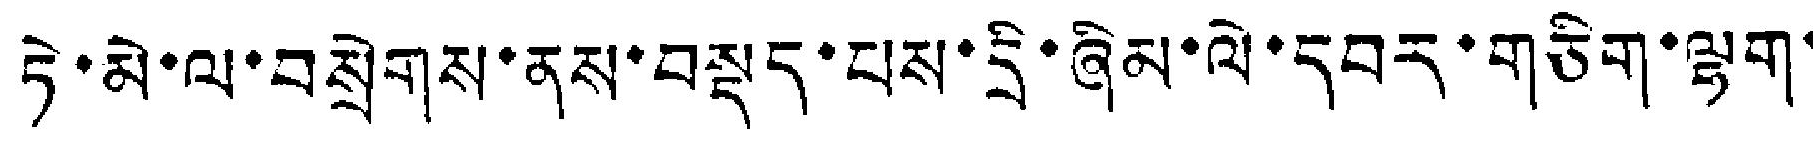ཏེ་མེ་ལ་བསྲེགས་ནས་བསྡད་པས་དྲི་ཞིམ་ལེ་དབར་གཅིག་ལྷག་
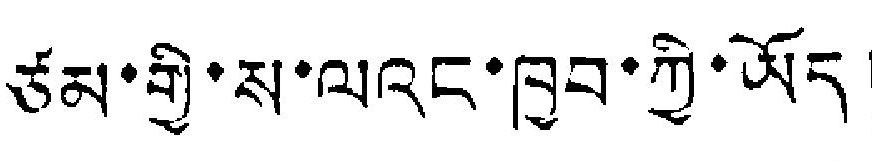ཙམ་གྱི་ས་ལའང་ཁྱབ་ཀྱི་ཡོད།
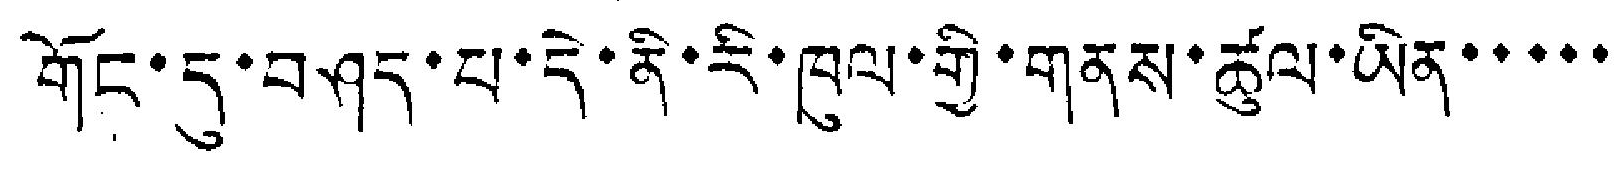གོང་དུ་བཤད་པ་དེ་ནི་རི་ཁུལ་གྱི་གནས་ཚུལ་ཡིན་་་་་
